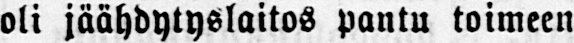oli jäähdytyslaitos pantu toimeen
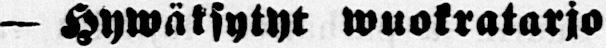— Hywäksytyt wuokratarjo-
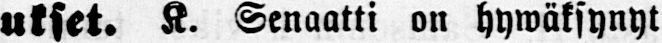ukset. K. Senaatti on hywäksynyt
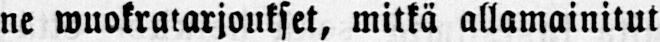ne wuokratarjoukset, mitkä allamainitut
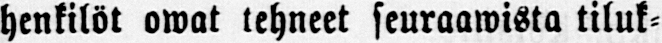henkilöt owat tehneet seuraawista tiluk-
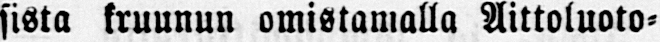sista kruunun omistamalla Aittoluoto-
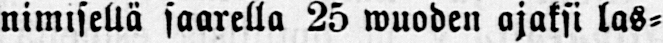nimisellä saarella 25 wuoden ojaksi las-
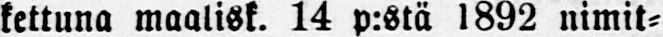kettuna maalisk. 14 p:stä 1892 nimit-
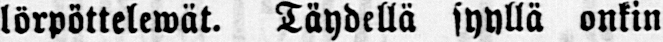lörpöttelewät. Täydellä syyllä onkin
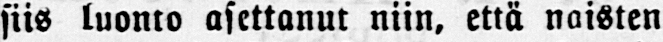siis luonto asettanut niin, että naisten
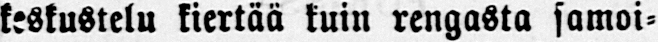keskustelu kiertää kuin rengasta samoi-
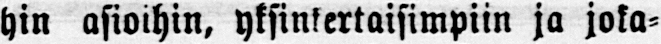hin asioihin, yksinkertaisimpiin ja joka-
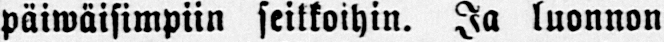päiwäisimpiin seikkoihin. Ja luonnon
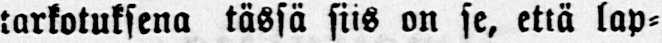tarkotuksena tässä siis on se, että lap-
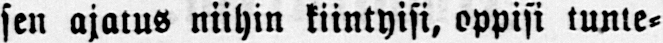sen ajatus niihin kiintyisi, oppisi tunte-
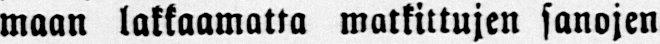maan lakkaamatta matkittujen sanojen
